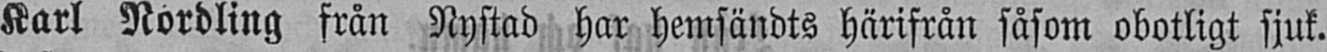Karl Nordling från Nystad har hemsändts härifrån såsom obotligt sjuk.
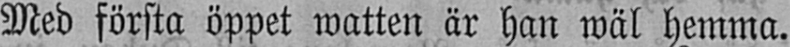Med första öppet watten är han wäl hemma.
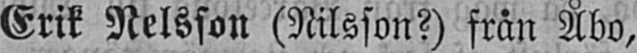Erik Nelsson (Nilsson?) från Åbo,
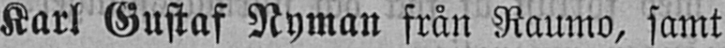Karl Gustaf Nyman från Raumo, samt
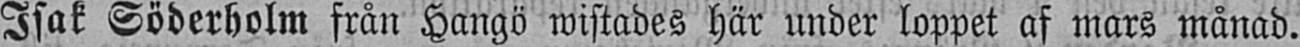Isak Söderholm från Hangö wistades här under loppet af mars månad.
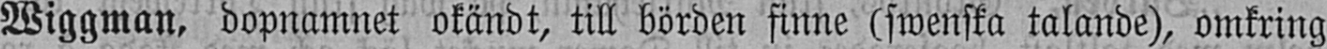Wiggman, dopnamnet okändt, till börden finne (swenska talande), omkring
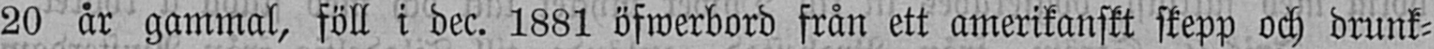20 är gammal, föll i dec. 1881 öfwerbord från ett amerikanskt skepp och drunk-
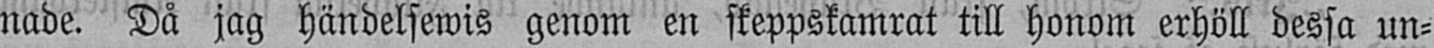nade. Då jag händelsewis genom en skeppskamrat till honom erhöll dessa un-
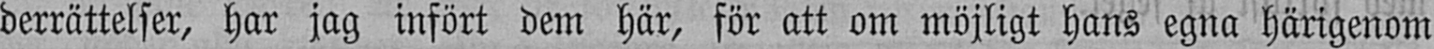derrättelser, har jag infört dem här, för att om möjligt hans egna härigenom
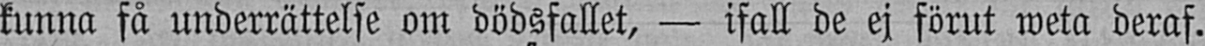kunna få underrättelse om dödsfallet, — ifall de ej förut weta deraf.
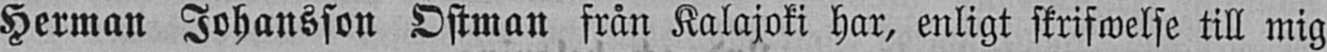Herman Johansson Östman från Kalajoki har, enligt skrifwelse till mig
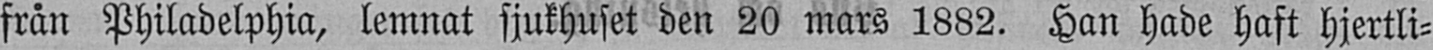från Philadelphia, lemnat sjukhuset den 20 mars 1882. Han hade haft hjertli-
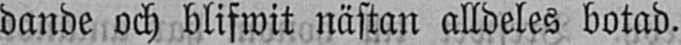dande och blifwit nästan alldeles botad.
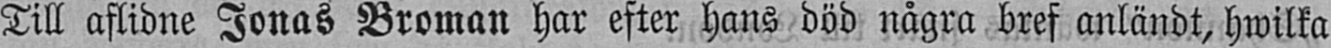Till aflidne Jonas Broman har efter hans död några bref anländt, hwilka
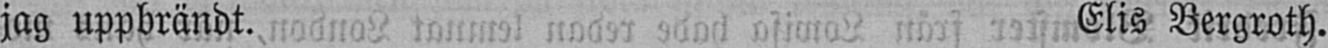jag uppbrändt. Elis Bergroth.
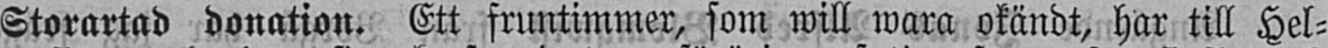Storartad donation. Ett fruntimmer, som will wara okändt, har till Hel-
